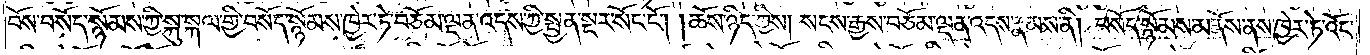བོས་བསོད་སྙོམས་ཀྱི་སྐུ་སྐལ་གྱི་བསོད་སྙོམས་ཁྱེར་ཏེ་བཅོམ་ལྡན་འདས་ཀྱི་སྤྱན་སྔར་སོང་ངོ༌། །ཆོས་ཉིད་ཀྱིས། སངས་རྒྱས་བཅོམ་ལྡན་འདས་རྣམས་ནི། བསོད་སྙོམས་མནོས་ནས་ཁྱེར་ཏེ་འོང་
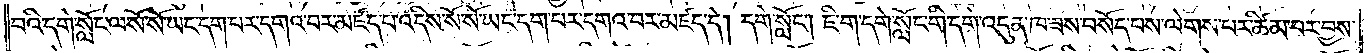བའི་དགེ་སློང་ལ་སོ་སོ་ཡང་དག་པར་དགའ་བར་མཛད་པ་འདིས་སོ་སོ་ཡང་དག་པར་དགའ་བར་མཛད་དེ། དགེ་སློང༌། ཇི་ག་དགེ་སློང་གི་དགེ་འདུན་ཁ་ཟས་བསོད་པས་ལེགས་པར་ཚིམ་པར་བྱས་
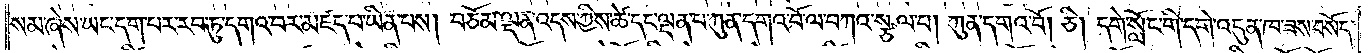སམ་ཞེས་ཡང་དག་པར་རབ་ཏུ་དགའ་བར་མཛད་པ་ཡིན་པས། བཅོམ་ལྡན་འདས་ཀྱིས་ཚེ་དང་ལྡན་པ་ཀུན་དགའ་བོ་ལ་བཀའ་སྩལ་པ། ཀུན་དགའ་བོ། ཅི། དགེ་སློང་གི་དགེ་འདུན་ཁ་ཟས་བསོད་
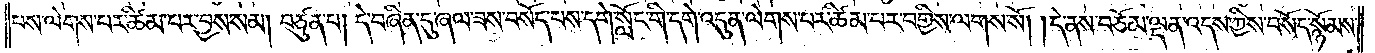བས་ལེགས་པར་ཚིམ་པར་བྱས་སམ། བཙུན་པ། དེ་བཞིན་དུ་ཞལ་ཟས་བསོད་པས་དགེ་སློང་གི་དགེ་འདུན་ལེགས་པར་ཚིམ་པར་བགྱིས་ལགས་སོ། །དེ་ནས་བཅོམ་ལྡན་འདས་ཀྱིས་བསོད་སྙོམས་
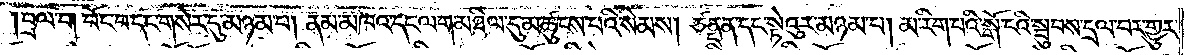།བྲལ་པ། བོང་བ་དང་གསེར་དུ་མཉམ་པ། ནམ་མཁའ་དང་ལག་མཐིལ་དུ་མཚུངས་པའི་སེམས། ཙནྡན་དང་སྟེའུར་མཉམ་པ། མ་རིག་པའི་སྒོ་ངའི་སྦུབས་དྲལ་བར་གྱུར་
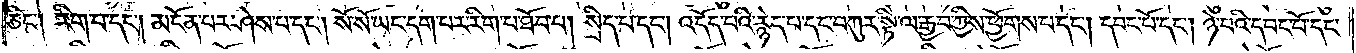ཅིང༌། རིག་པ་དང༌། མངོན་པར་ཤེས་པ་དང༌། སོ་སོ་ཡང་དག་པར་རིག་པ་ཐོབ་པ། སྲིད་པ་དང༌། འདོད་པའི་རྙེད་པ་དང་བཀུར་སྟི་ལ་རྒྱབ་ཀྱིས་ཕྱོགས་པ་དང༌། དབང་པོ་དང༌། ཉེ་བའི་དབང་པོ་དང་
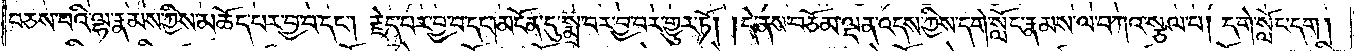བཅས་པའི་ལྷ་རྣམས་ཀྱིས་མཆོད་པར་བྱ་བ་དང༌། རྗེད་པར་བྱ་བ་དང༌། མངོན་དུ་སྨྲ་བར་བྱ་བར་གྱུར་ཏོ། །དེ་ནས་བཅོམ་ལྡན་འདས་ཀྱིས་དགེ་སློང་རྣམས་ལ་བཀའ་སྩལ་པ། དགེ་སློང་དག །
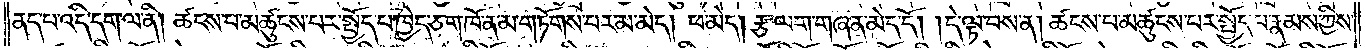ནད་པ་འདི་དག་ལ་ནི། ཚངས་པ་མཚུངས་པར་སྤྱོད་པ་ཁྱེད་ཅག་ཁོ་ན་མ་གཏོགས་པར་མ་མེད། ཕ་མེད། རྩ་ལག་གཞན་མེད་དོ། །དེ་ལྟ་བས་ན། ཚངས་པ་མཚུངས་པར་སྤྱོད་པ་རྣམས་ཀྱིས་
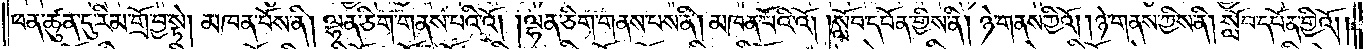ཕན་ཚུན་དུ་རིམ་གྲོ་བྱ་སྟེ། མཁན་པོས་ནི། ལྷན་ཅིག་གནས་པའི་འོ། །ལྷན་ཅིག་གནས་པས་ནི། མཁན་པོའི་འོ། །སློབ་དཔོན་གྱིས་ནི། ཉེ་གནས་ཀྱིའོ། །ཉེ་གནས་ཀྱིས་ནི། སློབ་དཔོན་གྱིའོ། །
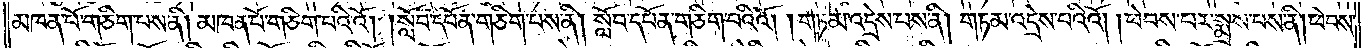མཁན་པོ་གཅིག་པས་ནི། མཁན་པོ་གཅིག་པའི་འོ། །སློབ་དཔོན་གཅིག་པས་ནི། སློབ་དཔོན་གཅིག་པའིའོ། །གཏམ་འདྲེས་པས་ནི། གཏམ་འདྲེས་པའིའོ། །ཕེབས་པར་སྨྲས་པས་ནི། ཕེབས་
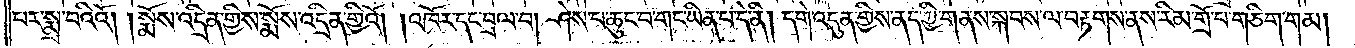པར་སྨྲ་བའིའོ། །སྨོས་འདྲིན་གྱིས་སྨོས་འདྲིན་གྱིའོ། །འཁོར་དང་བྲལ་བ། ཤེས་པ་ཆུང་བ་གང་ཡིན་པ་དེ་ནི། དགེ་འདུན་གྱིས་ནད་ཀྱི་གནས་སྐབས་ལ་བརྟགས་ནས་རིམ་གྲོ་པ་གཅིག་གམ།
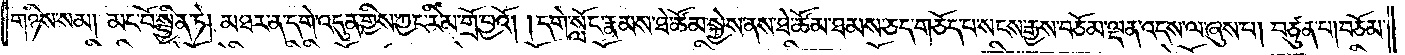གཉིས་སམ། མང་པོ་སྦྱིན་ཏེ། མཐར་ན་དགེ་འདུན་གྱིས་ཀྱང་རིམ་གྲོ་བྱའོ། །དགེ་སློང་རྣམས་ཐེ་ཚོམ་སྐྱེས་ནས་ཐེ་ཚོམ་ཐམས་ཅད་གཅོད་པ་སངས་རྒྱས་བཅོམ་ལྡན་འདས་ལ་ཞུས་པ། བཙུན་པ། བཅོམ་
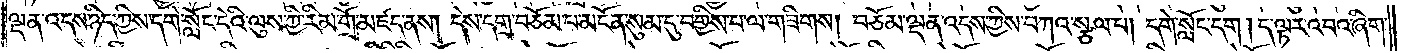ལྡན་འདས་ཉིད་ཀྱིས་དགེ་སློང་དེའི་ལུས་ཀྱི་རིམ་གྲོ་མཛད་ནས། དེས་དགྲ་བཅོམ་པ་མངོན་སུམ་དུ་བགྱིས་པ་ལ་གཟིགས། བཅོམ་ལྡན་འདས་ཀྱིས་བཀའ་སྩལ་པ། དགེ་སློང་དག །ད་ལྟར་འབའ་ཞིག་
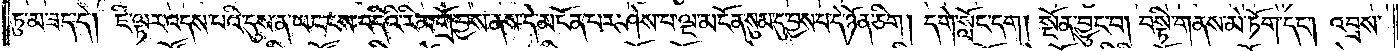ཏུ་མ་ཟད་དེ། ཇི་ལྟར་འདས་པའི་དུས་ན་ཡང་ངས་འདིའི་རིམ་གྲོ་བྱས་ནས་དེ་མངོན་པར་ཤེས་པ་ལྔ་མངོན་སུམ་དུ་བྱས་པ་དེ་ཉོན་ཅིག །དགེ་སློང་དག །སྔོན་བྱུང་བ། བསྟི་གནས་མེ་ཏོག་དང༌། འབྲས་
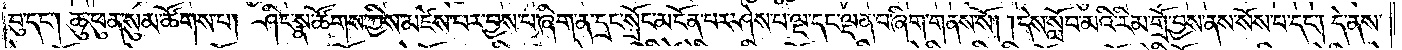བུ་དང༌། ཆུ་ཕུན་སུམ་ཚོགས་པ། ཤིང་སྣ་ཚོགས་ཀྱིས་མཛེས་པར་བྱས་པ་ཞིག་ན་དྲང་སྲོང་མངོན་པར་ཤེས་པ་ལྔ་དང་ལྡན་པ་ཞིག་གནས་སོ། །དེས་སློབ་མའི་རིམ་གྲོ་བྱས་ནས་སོས་པ་དང༌། དེ་ནས་
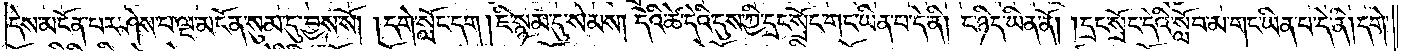དེས་མངོན་པར་ཤེས་པ་ལྔ་མངོན་སུམ་དུ་བྱས་སོ། །དགེ་སློང་དག །ཇི་སྙམ་དུ་སེམས། དེའི་ཚེ་དེའི་དུས་ཀྱི་དྲང་སྲོང་གང་ཡིན་པ་དེ་ནི། ང་ཉིད་ཡིན་ནོ། །དྲང་སྲོང་དེའི་སློབ་མ་གང་ཡིན་པ་དེ་ནི། དགེ་
